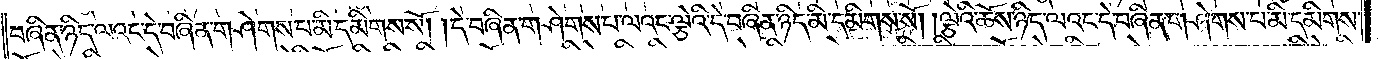བཞིན་ཉིད་ལའང་དེ་བཞིན་གཤེགས་པ་མི་དམིགས་སོ། །དེ་བཞིན་གཤེགས་པ་ལའང་ལྕེའི་དེ་བཞིན་ཉིད་མི་དམིགས་སོ། །ལྕེའི་ཆོས་ཉིད་ལའང་དེ་བཞིན་གཤེགས་པ་མི་དམིགས་
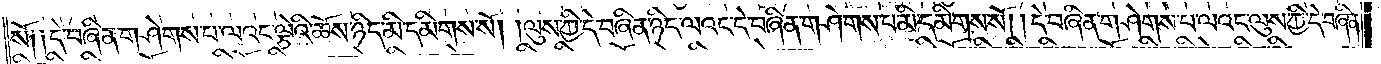སོ༏ ༏དེ་བཞིན་གཤེགས་པ་ལའང་ལྕེའི་ཆོས་ཉིད་མི་དམིགས་སོ། །ལུས་ཀྱི་དེ་བཞིན་ཉིད་ལའང་དེ་བཞིན་གཤེགས་པ་མི་དམིགས་སོ། །དེ་བཞིན་གཤེགས་པ་ལའང་ལུས་ཀྱི་དེ་བཞིན་
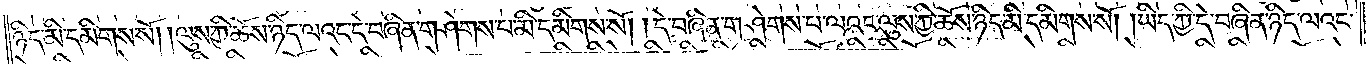ཉིད་མི་དམིགས་སོ། །ལུས་ཀྱི་ཆོས་ཉིད་ལའང་དེ་བཞིན་གཤེགས་པ་མི་དམིགས་སོ། །དེ་བཞིན་གཤེགས་པ་ལའང་ལུས་ཀྱི་ཆོས་ཉིད་མི་དམིགས་སོ། །ཡིད་ཀྱི་དེ་བཞིན་ཉིད་ལའང་
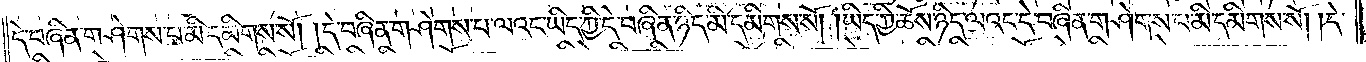དེ་བཞིན་གཤེགས་པ་མི་དམིགས་སོ། །དེ་བཞིན་གཤེགས་པ་ལའང་ཡིད་ཀྱི་དེ་བཞིན་ཉིད་མི་དམིགས་སོ། །ཡིད་ཀྱི་ཆོས་ཉིད་ལའང་དེ་བཞིན་གཤེགས་པ་མི་དམིགས་སོ། །དེ་
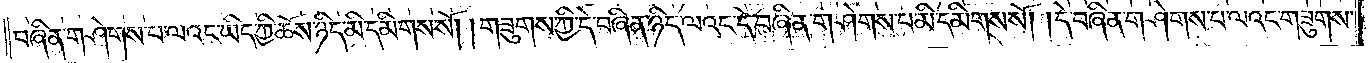བཞིན་གཤེགས་པ་ལའང་ཡིད་ཀྱི་ཆོས་ཉིད་མི་དམིགས་སོ། །གཟུགས་ཀྱི་དེ་བཞིན་ཉིད་ལའང་དེ་བཞིན་གཤེགས་པ་མི་དམིགས་སོ། །དེ་བཞིན་གཤེགས་པ་ལའང་གཟུགས་
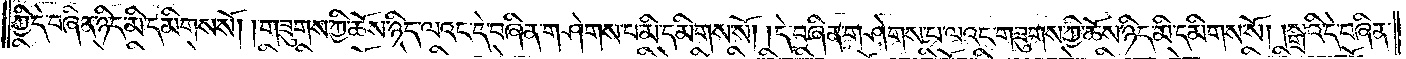ཀྱི་དེ་བཞིན་ཉིད་མི་དམིགས་སོ། །གཟུགས་ཀྱི་ཆོས་ཉིད་ལའང་དེ་བཞིན་གཤེགས་པ་མི་དམིགས་སོ། །དེ་བཞིན་གཤེགས་པ་ལའང་གཟུགས་ཀྱི་ཆོས་ཉིད་མི་དམིགས་སོ། །སྒྲའི་དེ་བཞིན་
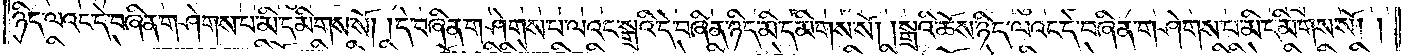ཉིད་ལའང་དེ་བཞིན་གཤེགས་པ་མི་དམིགས་སོ། །དེ་བཞིན་གཤེགས་པ་ལའང་སྒྲའི་དེ་བཞིན་ཉིད་མི་དམིགས་སོ། །སྒྲའི་ཆོས་ཉིད་ལའང་དེ་བཞིན་གཤེགས་པ་མི་དམིགས་སོ། །
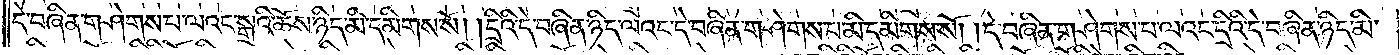དེ་བཞིན་གཤེགས་པ་ལའང་སྒྲའི་ཆོས་ཉིད་མི་དམིགས་སོ། །དྲིའི་དེ་བཞིན་ཉིད་ལའང་དེ་བཞིན་གཤེགས་པ་མི་དམིགས་སོ། །དེ་བཞིན་གཤེགས་པ་ལའང་དྲིའི་དེ་བཞིན་ཉིད་མི་
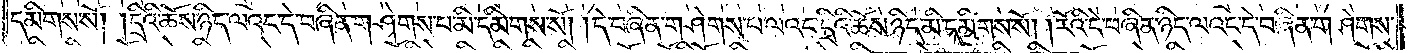དམིགས་སོ། །དྲིའི་ཆོས་ཉིད་ལའང་དེ་བཞིན་གཤེགས་པ་མི་དམིགས་སོ། །དེ་བཞིན་གཤེགས་པ་ལའང་དྲིའི་ཆོས་ཉིད་མི་དམིགས་སོ། །རོའི་དེ་བཞིན་ཉིད་ལའང་དེ་བཞིན་གཤེགས་
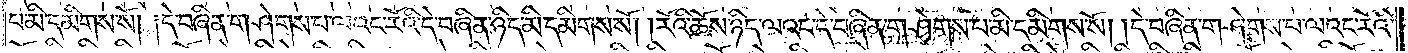པ་མི་དམིགས་སོ། །དེ་བཞིན་གཤེགས་པ་ལའང་རོའི་དེ་བཞིན་ཉིད་མི་དམིགས་སོ། །རོའི་ཆོས་ཉིད་ལའང་དེ་བཞིན་གཤེགས་པ་མི་དམིགས་སོ། །དེ་བཞིན་གཤེགས་པ་ལའང་རོའི་
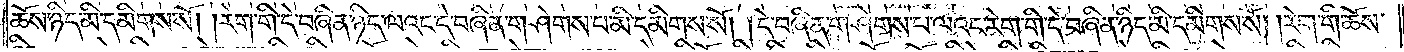ཆོས་ཉིད་མི་དམིགས་སོ། །རེག་གི་དེ་བཞིན་ཉིད་ལའང་དེ་བཞིན་གཤེགས་པ་མི་དམིགས་སོ། །དེ་བཞིན་གཤེགས་པ་ལའང་རེག་གི་དེ་བཞིན་ཉིད་མི་དམིགས་སོ། །རེག་གི་ཆོས་
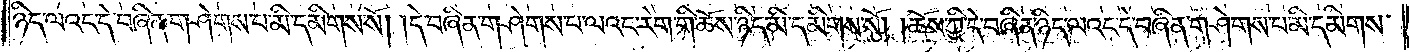ཉིད་ལའང་དེ་བཞིན་གཤེགས་པ་མི་དམིགས་སོ། །དེ་བཞིན་གཤེགས་པ་ལའང་རེག་གི་ཆོས་ཉིད་མི་དམིགས་སོ། །ཆོས་ཀྱི་དེ་བཞིན་ཉིད་ལའང་དེ་བཞིན་གཤེགས་པ་མི་དམིགས་
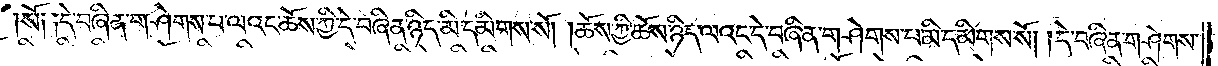སོ༏ ༏དེ་བཞིན་གཤེགས་པ་ལའང་ཆོས་ཀྱི་དེ་བཞིན་ཉིད་མི་དམིགས་སོ། །ཆོས་ཀྱི་ཆོས་ཉིད་ལའང་དེ་བཞིན་གཤེགས་པ་མི་དམིགས་སོ། །དེ་བཞིན་གཤེགས་
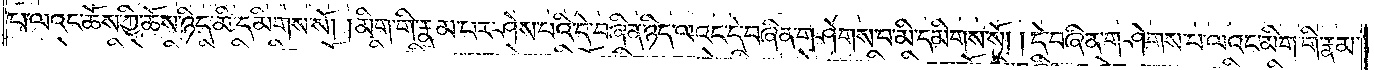པ་ལའང་ཆོས་ཀྱི་ཆོས་ཉིད་མི་དམིགས་སོ། །མིག་གི་རྣམ་པར་ཤེས་པའི་དེ་བཞིན་ཉིད་ལའང་དེ་བཞིན་གཤེགས་པ་མི་དམིགས་སོ། །དེ་བཞིན་གཤེགས་པ་ལའང་མིག་གི་རྣམ་
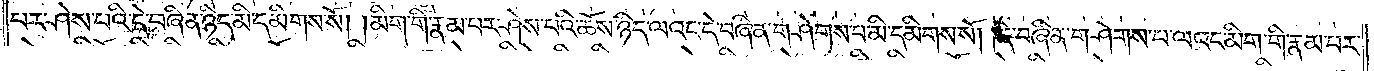པར་ཤེས་པའི་དེ་བཞིན་ཉིད་མི་དམིགས་སོ། །མིག་གི་རྣམ་པར་ཤེས་པའི་ཆོས་ཉིད་ལའང་དེ་བཞིན་གཤེགས་པ་མི་དམིགས་སོ། །དེ་བཞིན་གཤེགས་པ་ལའང་མིག་གི་རྣམ་པར་
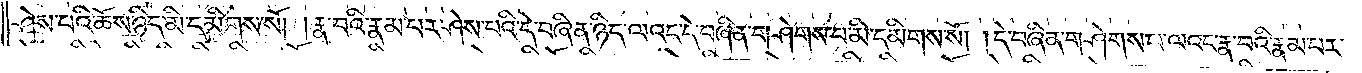ཤེས་པའི་ཆོས་ཉིད་མི་དམིགས་སོ། །རྣ་བའི་རྣམ་པར་ཤེས་པའི་དེ་བཞིན་ཉིད་ལའང་དེ་བཞིན་གཤེགས་པ་མི་དམིགས་སོ། །དེ་བཞིན་གཤེགས་པ་ལའང་རྣ་བའི་རྣམ་པར་
